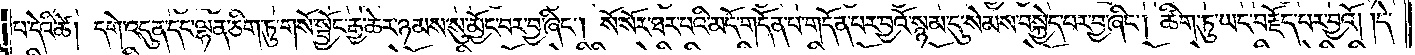པ་དེའི་ཚེ། དགེ་འདུན་དང་ལྷན་ཅིག་ཏུ་གསོ་སྦྱོང་རྒྱ་ཆེར་ཉམས་སུ་མྱོང་བར་བྱ་ཞིང༌། སོ་སོར་ཐར་པའི་མདོ་གདོན་པ་གདོན་པར་བྱའོ་སྙམ་དུ་སེམས་བསྐྱེད་པར་བྱ་ཞིང༌། ཚིག་ཏུ་ཡང་བརྗོད་པར་བྱའོ། །དེ་
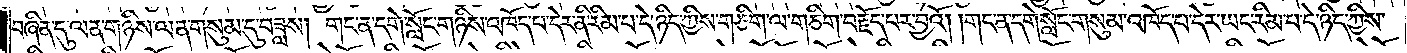བཞིན་དུ་ལན་གཉིས་ལན་གསུམ་དུ་བཟླས། གང་ན་དགེ་སློང་གཉིས་འཁོད་པ་དེར་ནི་རིམ་པ་དེ་ཉིད་ཀྱིས་གཅིག་ལ་གཅིག་བརྗོད་པར་བྱའོ། །གང་ན་དགེ་སློང་གསུམ་འཁོད་པ་དེར་ཡང་རིམ་པ་དེ་ཉིད་ཀྱིས་
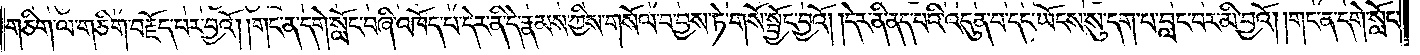གཅིག་ལ་གཅིག་བརྗོད་པར་བྱའོ། །གང་ན་དགེ་སློང་བཞི་འཁོད་པ་དེར་ནི་དེ་རྣམས་ཀྱིས་གསོལ་བ་བྱས་ཏེ་གསོ་སྦྱོང་བྱའོ། །དེར་ནི་ནད་པའི་འདུན་པ་དང་ཡོངས་སུ་དག་བ་བླང་བར་མི་བྱའོ། །གང་ན་དགེ་སློང་
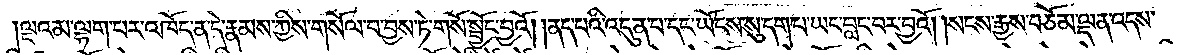།ལྔའམ་ལྷག་པར་འཁོད་ན་དེ་རྣམས་ཀྱིས་གསོལ་བ་བྱས་ཏེ་གསོ་སྦྱོང་བྱའོ། །ནད་པའི་འདུན་པ་དང་ཡོངས་སུ་དག་པ་ཡང་བླང་བར་བྱའོ། །སངས་རྒྱས་བཅོམ་ལྡན་འདས་
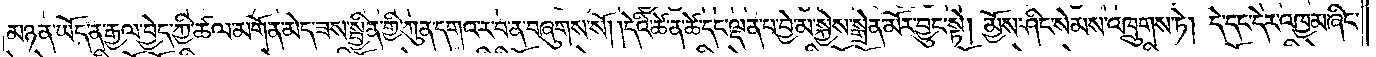མཉན་ཡོད་ན་རྒྱལ་བྱེད་ཀྱི་ཚལ་མགོན་མེད་ཟས་སྦྱིན་གྱི་ཀུན་དགའ་ར་བ་ན་བཞུགས་སོ། །དེའི་ཚེ་ན་ཚེ་དང་ལྡན་པ་བྱེ་མ་སྐྱེས་སྒྲེན་མོར་བྱུང་སྟེ། མྱོས་ཤིང་སེམས་འཁྲུགས་ཏེ། དེ་དང་དེར་འཁྱམ་ཞིང་
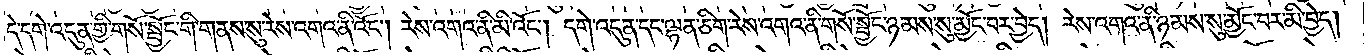དེ་དགེ་འདུན་གྱི་གསོ་སྦྱོང་གི་གནས་སུ་རེས་འགའ་ནི་འོང༌། རེས་འགའ་ནི་མི་འོང༌། དགེ་འདུན་དང་ལྷན་ཅིག་རེས་འགའ་ནི་གསོ་སྦྱོང་ཉམས་སུ་མྱོང་བར་བྱེད། རེས་འགའ་ནི་ཉམས་སུ་མྱོང་བར་མི་བྱེད།
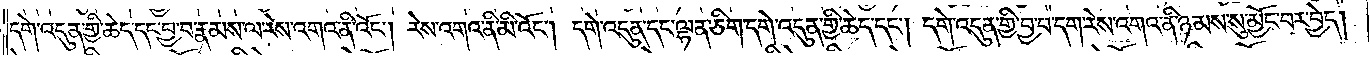དགེ་འདུན་གྱི་ཆེད་དང་བྱ་བ་རྣམས་ལ་རེས་འགའ་ནི་འོང༌། རེས་འགའ་ནི་མི་འོང༌། དགེ་འདུན་དང་ལྷན་ཅིག་དགེ་འདུན་གྱི་ཆེད་དང༌། དགེ་འདུན་གྱི་བྱ་བ་དག་རེས་འགའ་ནི་ཉམས་སུ་མྱོང་བར་བྱེད།
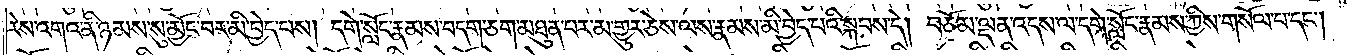རེས་འགའ་ནི་ཉམས་སུ་མྱོང་བར་མི་བྱེད་པས། དགེ་སློང་རྣམས་བདག་ཅག་མཐུན་པར་མ་གྱུར་ཅེས་ལས་རྣམས་མི་བྱེད་པའི་སྐབས་དེ། བཅོམ་ལྡན་འདས་ལ་དགེ་སློང་རྣམས་ཀྱིས་གསོལ་པ་དང༌།
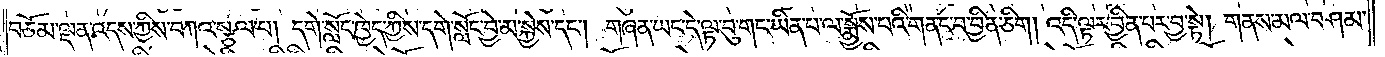བཅོམ་ལྡན་འདས་ཀྱིས་བཀའ་སྩལ་པ། དགེ་སློང་ཁྱེད་ཀྱིས་དགེ་སློང་བྱེ་མ་སྐྱེས་དང༌། གཞན་ཡང་དེ་ལྟ་བུ་གང་ཡིན་པ་ལ་སྨྱོས་པའི་གནང་བ་བྱིན་ཅིག། འདི་ལྟར་བྱིན་པར་བྱ་སྟེ། གནས་མལ་བཤམ་
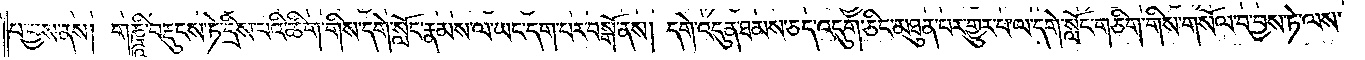པ་བྱས་ནས། གཎྜཱི་བརྡུངས་ཏེ་དྲིས་པའི་ཚིག་གིས་དགེ་སློང་རྣམས་ལ་ཡང་དག་པར་བསྒོ་ནས། དགེ་འདུན་ཐམས་ཅད་འདུག་ཅིང་མཐུན་པར་གྱུར་བ་ལ་དགེ་སློང་གཅིག་གིས་གསོལ་བ་བྱས་ཏེ་ལས་
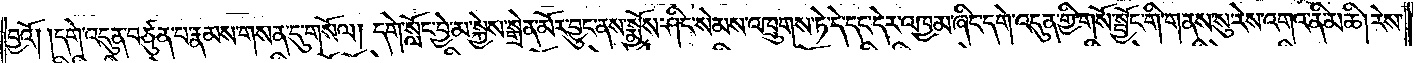བྱའོ། །དགེ་འདུན་བཙུན་པ་རྣམས་གསན་དུ་གསོལ། དགེ་སློང་བྱེ་མ་སྐྱེས་སྒྲེན་མོར་བྱུང་ནས་སྨྱོས་ཤིང་སེམས་འཁྲུགས་ཏེ་དེ་དང་དེར་འཁྱམ་ཞིང་དགེ་འདུན་གྱི་གསོ་སྦྱོང་གི་གནས་སུ་རེས་འགའ་ནི་མཆི། རེས་
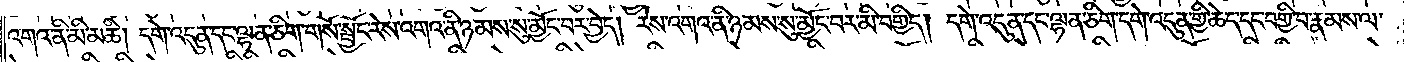འགའ་ནི་མི་མཆི། དགེ་འདུན་དང་ལྷན་ཅིག་གསོ་སྦྱོང་རེས་འགའ་ནི་ཉམས་སུ་མྱོང་བར་བྱེད། རེས་འགའ་ནི་ཉམས་སུ་མྱོང་བར་མི་བགྱིད། དགེ་འདུན་དང་ལྷན་ཅིག་དགེ་འདུན་གྱི་ཆེད་དང་བགྱི་བ་རྣམས་ལ་
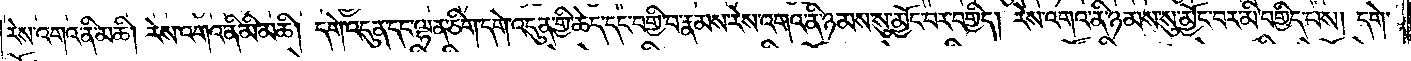རེས་འགའ་ནི་མཆི། རེས་འགའ་ནི་མི་མཆི། དགེ་འདུན་དང་ལྷན་ཅིག་དགེ་འདུན་གྱི་ཆེད་དང་བགྱི་བ་རྣམས་རེས་འགའ་ནི་ཉམས་སུ་མྱོང་བར་བགྱིད། རེས་འགའ་ནི་ཉམས་སུ་མྱོང་བར་མི་བགྱིད་པས། དགེ་
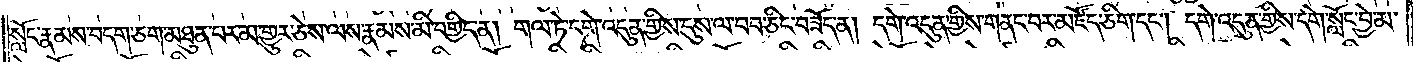སློང་རྣམས་བདག་ཅག་མཐུན་པར་མ་གྱུར་ཅེས་ལས་རྣམས་མི་བགྱིད་ན། གལ་ཏེ་དགེ་འདུན་གྱིས་དུས་ལ་བབ་ཅིང་བཟོད་ན། དགེ་འདུན་གྱིས་གནང་བར་མཛོད་ཅིག་དང༌། དགེ་འདུན་གྱིས་དགེ་སློང་བྱེ་མ་
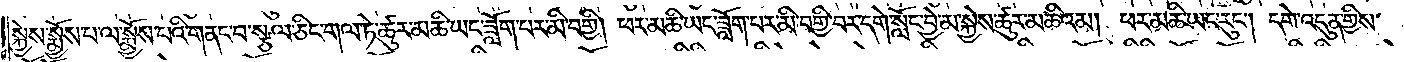སྐྱེས་སྨྱོས་པ་ལ་སྨྱོས་པའི་གནང་བ་སྩལ་ཅིང་གལ་ཏེ་ཚུར་མཆི་ཡང་ཟློག་པར་མི་བགྱི། ཕར་མཆི་ཡང་ཟློག་པར་མི་བགྱི་བར་དགེ་སློང་བྱེ་མ་སྐྱེས་ཚུར་མཆིའམ། ཕར་མཆི་ཡང་རུང༌། དགེ་འདུན་གྱིས་
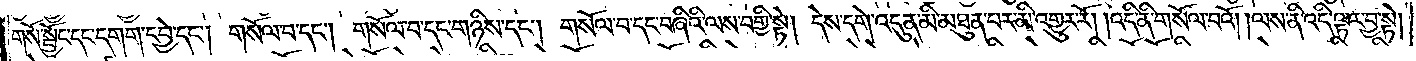གསོ་སྦྱོང་དང་དགག་དབྱེ་དང༌། གསོལ་བ་དང༌། གསོལ་བ་དང་གཉིས་དང༌། གསོལ་བ་དང་བཞིའི་ལས་བགྱི་སྟེ། དེས་དགེ་འདུན་མི་མཐུན་པར་མི་འགྱུར་རོ། །འདི་ནི་གསོལ་བའོ། །ལས་ནི་འདི་ལྟར་བྱ་སྟེ།
